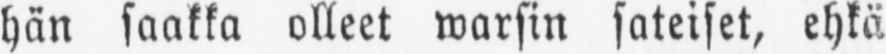hän saakka olleet warsin sateiset, ehkä
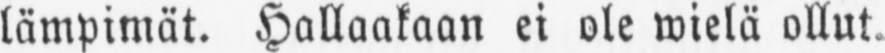lämpimät. Hallaakaan ei ole wielä ollut.
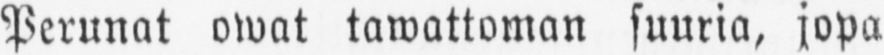Perunat owat tawattoman suuria, jopa
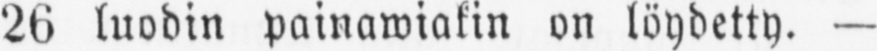26 luodin painawiakin on löydetty. —
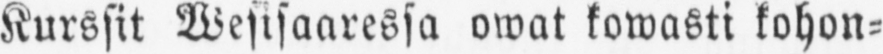Kurssit Wesisaaressa owat kowasti kohon-
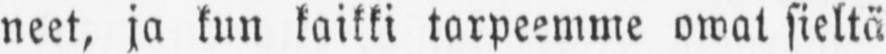neet, ja kun kaikki tarpeemme owat sieltä
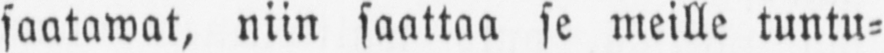saatawat, niin saattaa se meille tuntu-
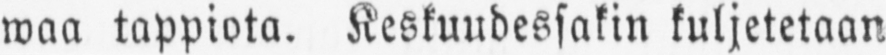waa tappiota. Keskuudessakin kuljetetaan
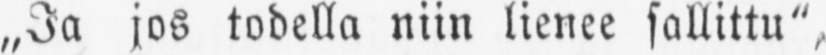„Ja jos todella niin lienee sallittu",
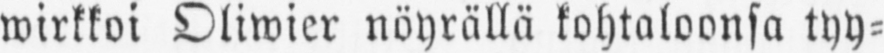wirkkoi Oliwier nöyrällä kohtaloonsa tyy-
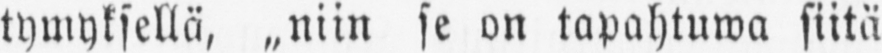tymyksellä, „niin se on tapahtuwa siitä
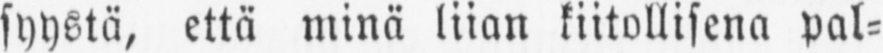syystä, että minä liian kiitollisena pal-
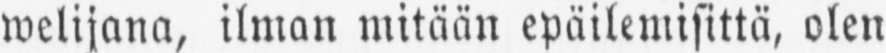welijana, ilman mitään epäilemisittä, olen
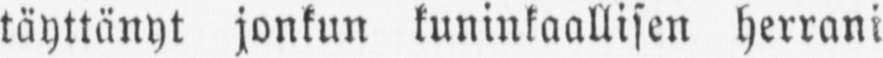täyttänyt jonkun kuninkaallisen herrani
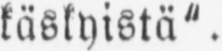käskyistä".
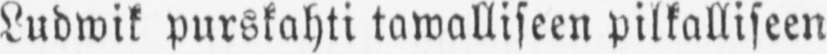Ludwik purskahti tawalliseen pilkalliseen
